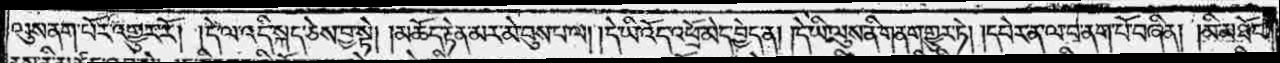ལུས་ནག་པོར་འགྱུར་རོ། །དེ་ལ་འདི་སྐད་ཅེས་བྱ་སྟེ། །མཆོད་རྟེན་མར་མེ་བུས་པ་ལ། །དེ་ཡི་འོད་འཕྲོ་མེད་བྱེད་ན། །དེ་ཡི་ལུས་ནི་གནག་གྱུར་ཏེ། །དཔེར་ན་ལ་བ་ནག་པོ་བཞིན། །མི་མཐོང་
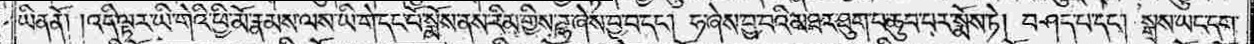ཡིན་ནོ། །འདི་ལྟར་ཡི་གེའི་ཕྱི་མི་རྣམས་ལས་ཡི་གེ་དང་པོ་སྨོས་ནས་རིམ་གྱིས་ཌྷ་ཞེས་བྱ་བ་དང༌། ཧ་ཞེས་བྱ་བའི་མཐར་ཐུག་པ་ཆུབ་པར་སྨོས་ཏེ། བཤད་པ་དང༌། སྒྲས་ཡང་དག་
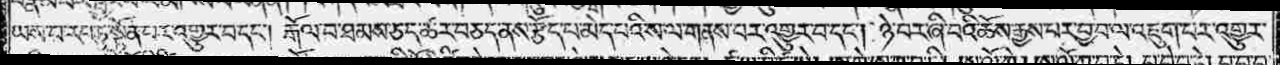ཡས་པ་རབ་ཏུ་སྟོན་པར་འགྱུར་བ་དང༌། རྒོལ་བ་ཐམས་ཅད་ཚར་བཅད་ནས་རྩོད་པ་མེད་པའི་ས་ལ་གནས་པར་འགྱུར་བ་དང༌། ཉེ་བར་ཞི་བའི་ཆོས་རྒྱས་པར་བྱ་བ་ལ་འཇུག་པར་འགྱུར་
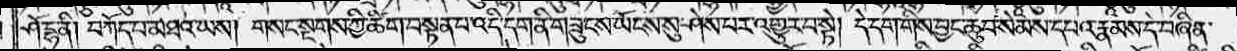ཤོ་དྷ་ནི། བཀོད་པ་མཐའ་ཡས། གསང་སྔགས་ཀྱི་ཚིག་བསྟན་པ་འདི་དག་ནི་གཟུངས་ཡོངས་སུ་ཤེས་པར་འགྱུར་བ་སྟེ། དེ་དག་གིས་བྱང་ཆུབ་སེམས་དཔའ་རྣམས་དེ་བཞིན་
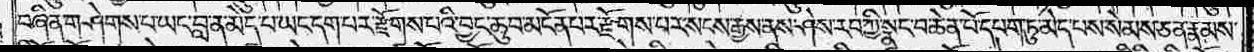བཞིན་གཤེགས་པ་ཡང་བླ་ན་མེད་པ་ཡང་དག་པར་རྫོགས་པའི་བྱང་ཆུབ་མངོན་པར་རྫོགས་པར་སངས་རྒྱས་ནས་ཤེས་རབ་ཀྱི་སྣང་བ་ཆེན་པོ་དཔག་ཏུ་མེད་པས་སེམས་ཅན་རྣམས་
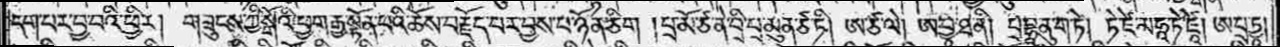དག་པར་བྱ་བའི་ཕྱིར། གཟུངས་ཀྱི་སྒོའི་ཕྱག་རྒྱ་སྟོན་པའི་ཆོས་བརྗོད་པར་བྱས་པ་ཉོན་ཅིག །པྲ་མོ་ཙ་ནེ་བྲི་པྲ་མུན་ཙ་ཏི། ཨ་ཙ་ལེ། ཨ་བྱཱ་ཐ་ནི། པྲ་བྷཱ་ནུ་ག་ཏེ། ཏེ་ཛེ་མཧཱ་ཏེ་ཛཱེ། ཨ་པྲ་ཏྱཱ།
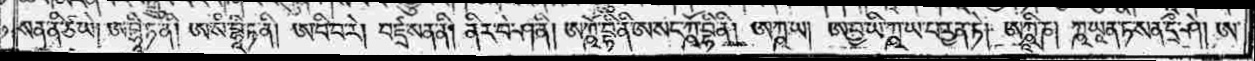སན་ནི་ཙ་ཡེ། ཨ་བྷི་ཏ་ནི། ཨ་སཾ་བྷཱི་ཏ་ནི། ཨ་བི་བ་རེ། བཛྲ་སན་ནི། ནིར་བེ་ཤ་ནི། ཨཀྵོ་བྷི་ནི་ཨ་སང་ཀྵོ་བྷི་ནི། ཨཀྵ་ཡ། ཨ་བྱ་ཡི་ཀྵ་ཡ་པ་རྱན་ཏེ། ཨཀྵཱི་ཎ། ཀྵ་ཡཱ་ན་ཏ་སན་དྲྀ་ཤེ། ཨ་
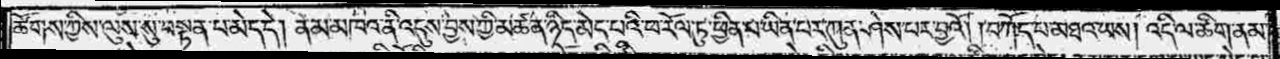ཚོགས་ཀྱིས་ལུས་སུ་བསྟན་པ་མེད་དེ། ནམ་མཁའ་ནི་འདུས་བྱས་ཀྱི་མཚན་ཉིད་མེད་པའི་ཕ་རོལ་ཏུ་ཕྱིན་པ་ཡིན་པར་ཀུན་ཤེས་པར་བྱའོ། །བཀོད་པ་མཐའ་ཡས། འདི་ལ་ཚིག་ནམ་
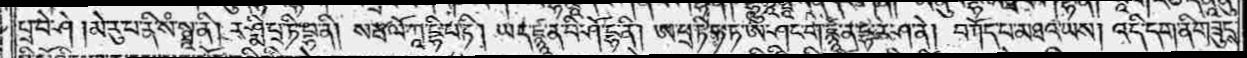པྲ་བེ་ཤེ །མེ་རུ་པ་ནི་སཾ་སྠཱ་ནི། རཤྨི་པྲ་ཏི་བྷ་ནི། སརྦ་ལོ་ཀཱ་དྷི་པ་ཏི། ཡད་ཛྙཱ་ན་བི་ཤོ་དྷ་ནི། ཨ་པྲ་ཏི་ཧ་ཏ་ཨ་ཤང་ག་ཛྙཱ་ན་དྷ་རེ་ཤ་ནེ། བཀོད་པ་མཐའ་ཡས། འདི་དག་ནི་གཟུངས་
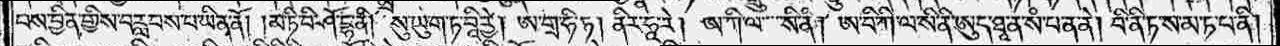པས་བྱིན་གྱིས་བརླབས་པ་ཡིན་ནོ། །མ་ཏི་བི་ཤོ་དྷ་ནི། སུ་ཡུ་ག་ཏ་བཱི་ཪྻེ། ཨ་གྲ་ཧི་ཏ། ནིར་ཧཱ་རེ། ཨ་ཀི་ལ་སི་ནཾ། ཨ་བི་ཀི་ལ་སི་ནི་ཨུད་ཐཱ་ན་སཾ་པ་ན་ནེ། བི་ནི་ཏ་ས་མ་ཏ་པ་ནི།
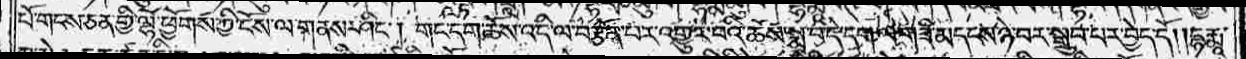པོ་གངས་ཅན་གྱི་ལྷོ་ཕྱོགས་ཀྱི་ངོས་ལ་གནས་ཤིང༌། གང་དག་ཆོས་འདི་ལ་བརྩོན་པར་འགྱུར་བའི་ཆོས་སྨྲ་བ་དེ་དག་ལ་གཟི་མདངས་ཉེ་བར་སྒྲུབ་པར་བྱེད་དོ། །དྷརྨཱ་
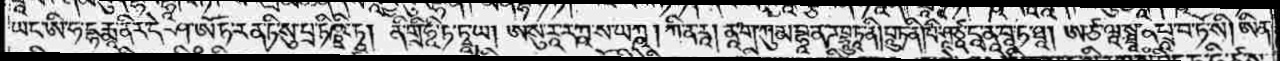ཡང་ཨི་ཧ་དྷརྨཱ་ནིར་དེ་ཤ་ཨོ་ཏ་རན་ཏི་སུ་པྲ་ཏིཥྛི་ཏཱ། ནི་གྲི་ཧཱི་ཏ་ཏྭཱ་ཡ། ཨ་སུ་རཱ་རཀྵ་ས་ཡཀྵ། ཀི་ན་རཱ། ནཱ་གྲ་ཀུ་མ་བྷཱ་ན་ཌ་བྷཱུ་ཏཱ་ནི། པཱུ་ཏ་ནི། པི་ཤཱ་ཙཱ་དཱ་ནཱ་བཱ་ཏ་ཐཱ། ཨ་ཙ་ལཱ་སྠཱ་ན་པྲཱ་བ་ཏོ་སི། ཨིན་
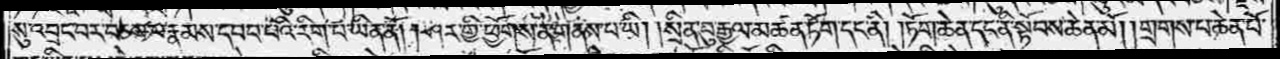སུ་འབྲང་བར་བཅས་པ་རྣམས་དབབ་པའི་རིག་པ་ཡིན་ནོ། །ཤར་གྱི་ཕྱོགས་ན་གནས་པ་ཡི། །སྲིན་བུ་རྒྱལ་མཚན་ཏོག་དང་ནི། །ཏོག་ཆེན་དང་ནི་སྟོབས་ཆེན་མོ། །གྲགས་པ་ཆེན་པོ་
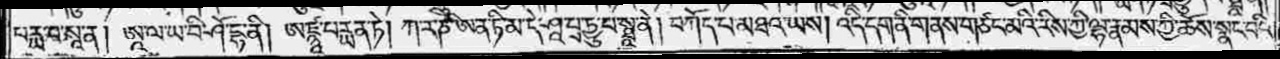པཪྻ་བ་སཱ་ན། ཨཱ་ལ་ཡ་བི་ཤོ་དྷ་ནི། ཨ་ཛྙཱ་པཪྻན་ཏེ། ཀ་ར་ཎི་ཨ་ན་ཏི་མ་དེ་ཤཱ་པྲ་ཏྱུ་པ་སྠཱ་ནེ། བཀོད་པ་མཐའ་ཡས། འདི་དག་ནི་གནས་གཙང་མའི་རིས་ཀྱི་ལྷ་རྣམས་ཀྱི་ཆོས་སྣང་བའི་
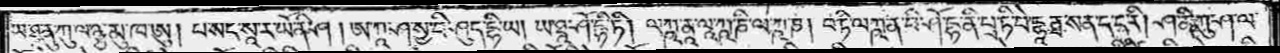ཡ་ཐཱ་ནུ་ཀུ་ལཉྩ་མུ་ཁ་ཨུ། པ་སང་སཱ་ར་ཡོ་ནི་ཤ་།ཨ་ཀཱ་ཤ་སྱ་བི་ཤུད་དྷི་ཡ། ཡ་ཐཱ་ཤོ་དྷི་ཏི། ལཀྵ་ནཱ་ལཱཀྵ་ཎི་ལཀྵ་ཎ། བ་ཏི་ལཀྵ་ན་བི་ཤོ་དྷ་ནི་པྲ་ཏི་བེ་དྷཱརྠ་ས་ན་ད་ད་རི། ཤ་ནི་ཀུ་ཤ་ལ་
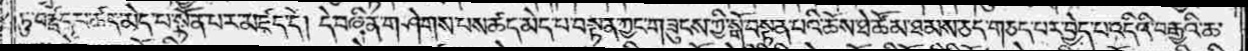ཏུ་བརྗོད་པ་ཚད་མེད་པ་སྟོན་པར་མཛད་དེ། དེ་བཞིན་གཤེགས་པས་ཚད་མེད་པ་བསྟན་ཀྱང་གཟུངས་ཀྱི་སྒོ་བསྟན་པའི་ཆོས་ཐེ་ཚོམ་ཐམས་ཅད་གཅད་པར་བྱེད་པ་འདིའི་བརྒྱའི་ཆ་
